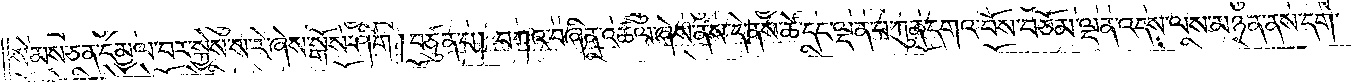སེམས་ཅན་དམྱལ་བར་སྐྱེས་ས་རེ་ཞེས་སྒོས་ཤིག །བཙུན་པ། བཀའ་བཞིན་འཚལ་ཞེས་ནས་དེ་ནས་ཚེ་དང་ལྡན་པ་ཀུན་དགའ་བོས་བཅོམ་ལྡན་འདས་ལས་མཉན་ནས་དགེ་
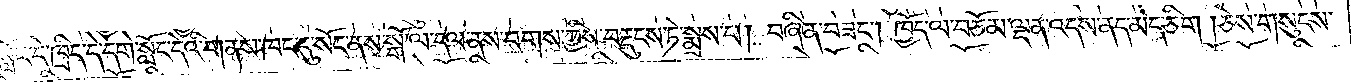སློང་དེ་ཁྲིད་དེ་དགེ་སློང་དེའི་གནས་ཁང་དུ་སོང་ནས་སྒོ་ལ་དལ་ནས་བགས་ཀྱིས་བརྡུངས་ཏེ་སྨྲས་པ། བཞིན་བཟང༌། ཁྱོད་ལ་བཅོམ་ལྡན་འདས་ནད་མེད་ཅིག །ཅེས་གསུངས་
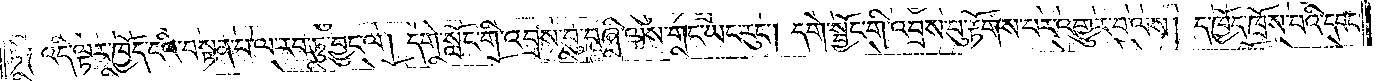ཏེ༑ འདི་ལྟར་ཁྱོད་ངའི་བསྟན་པ་ལ་རབ་ཏུ་བྱུང་ལ། དགེ་སློང་གི་འབྲས་བུ་བཞི་ལས་གང་ཡང་རུང༌། དགེ་སྦྱོང་གི་འབྲས་བུ་རྟོགས་པར་འགྱུར་བ་ལས། ད་ཁྱོད་ཁྲོས་བའི་དབང་
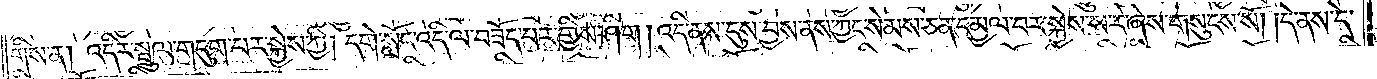གིས་ན། འདིར་སྦྲུལ་གདུག་པར་སྐྱེས་ཀྱི། དགེ་སློང་འདི་ལ་བཟོད་པར་གྱིས་ཤིག །འདི་ནས་དུས་བྱས་ནས་ཀྱང་སེམས་ཅན་དམྱལ་བར་སྐྱེས་ས་རེ་ཞེས་གསུངས་སོ། །དེ་ནས་དེ་
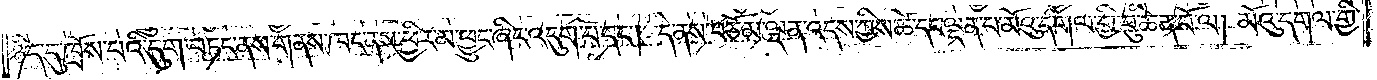ཉིད་དུ་ཁྲོས་པའི་དུག་བཏང་ནས་གནས་ཁང་ནས་ཕྱིར་མ་ཕྱུང་ཞིང་འདུག་པ་དང༌། དེ་ནས་བཅོམ་ལྡན་འདས་ཀྱིས་ཚེ་དང་ལྡན་པ་མོའུ་དགལ་གྱི་བུ་ཆེན་པོ་ལ། མོའུ་དགལ་གྱི་
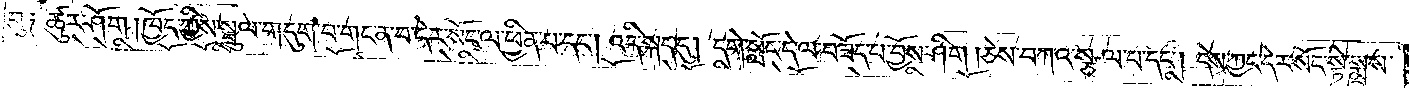བུ༑ ཚུར་ཤོག །ཁྱོད་ཀྱིས་སྦྲུལ་གདུག་པ་གང་ན་བ་དེར་སོང་ལ་ཕྱིན་པ་དང༌། འདི་སྐད་དུ། དགེ་སློང་དེ་ལ་བཟོད་པ་བྱོས་ཤིག །ཅེས་བཀའ་སྩལ་པ་དང༌། དེས་ཀྱང་དེར་སོང་སྟེ་སྨྲས་
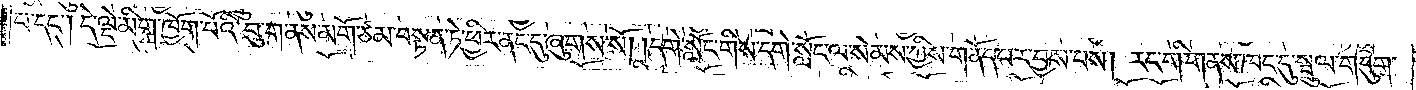པ་དང༌། དེ་ལྡེ་མིག་ཁྱོག་པོའི་བུ་ག་ནས་མགོ་ཙམ་བསྟན་ཏེ་ཕྱིར་ནང་དུ་ཞུགས་སོ། །དགེ་སློང་གིས་དགེ་སློང་ལ་སེམས་ཀྱིས་གནོད་པར་བྱས་པས། རང་གི་གནས་ཁང་དུ་སྦྲུལ་གདུག་
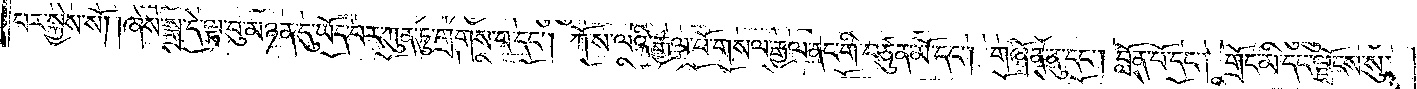པར་སྐྱེས་སོ། །ཞེས་སྒྲ་དེ་ལྟ་བུ་མཉན་དུ་ཡོད་པར་ཀུན་ཏུ་གྲགས་པ་དང༌། ཀོ་ས་ལའི་རྒྱལ་པོ་གསལ་རྒྱལ་ནང་གི་བཙུན་མོ་དང༌། གཞོན་ནུ་དང༌། བློན་པོ་དང༌། གྲོང་མི་དང་ལྗོངས་སུ་
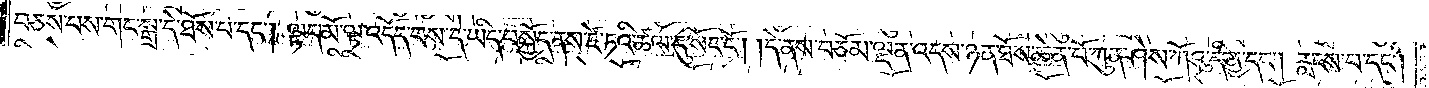བཅས་པས་གང་སྒྲ་དེ་ཐོས་པ་དང༌། ལྟད་མོ་ལྟ་འདོད་པས་དེ་ཡིད་བསྐྱེད་ནས་ཛེ་ཏའི་ཚལ་དུ་སོང་ངོ༌། །དེ་ནས་བཅོམ་ལྡན་འདས་ཉན་ཐོས་ཆེན་པོ་ཀུན་ཤེས་ཀོའུ་དི་ནྱ་དང༌། རླངས་པ་དང༌།
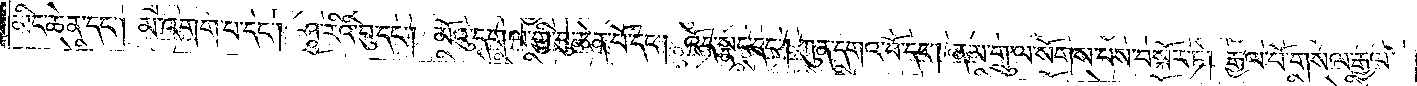མིང་ཆེན་དང༌། མ་འགག་པ་དང༌། ཤཱ་རིའི་བུ་དང༌། མོའུ་དགལ་གྱི་བུ་ཆེན་པོ་དང༌། འོད་སྣང་དང༌། ཀུན་དགའ་བོ་དང༌། ནམ་གྲུ་ལ་སོགས་པས་བསྐོར་ཏེ། རྒྱལ་པོ་གསལ་རྒྱལ་
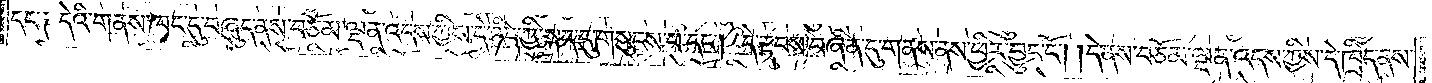དང་༑ དེའི་གནས་ཁང་དུ་བཞུད་ནས་བཅོམ་ལྡན་འདས་ཀྱིས་དེ་ཉིད་ཀྱི་སྐད་དུ་གསུངས་པ་དང༌། དེ་རྟབས་བཞིན་དུ་གནས་ནས་ཕྱིར་བྱུང་ངོ༌། །དེ་ནས་བཅོམ་ལྡན་འདས་ཀྱིས་དེ་ཁྲིད་ནས་
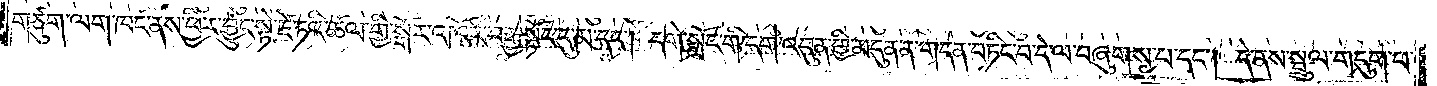གཙུག་ལག་ཁང་ནས་ཕྱིར་བྱུང་སྟེ་ཛེ་ཏའི་ཚལ་གྱི་སྒོར་འཁོར་བརྒྱ་སྟོང་དུ་མ་དང༌། དགེ་སློང་གི་དགེ་འདུན་གྱི་མདུན་ན་གདན་བཏིང་བ་དེ་ལ་བཞུགས་པ་དང༌། དེ་ནས་སྦྲུལ་གདུག་པ་
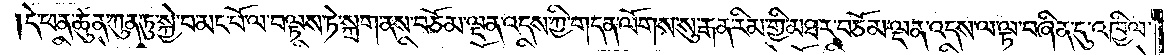དེ་ཕན་ཚུན་ཀུན་ཏུ་སྐྱེ་བ་མང་པོ་ལ་བལྟས་ཏེ་སྐྲག་ནས་བཅོམ་ལྡན་འདས་ཀྱི་གདན་ལོགས་སུ་རྒན་རིམ་གྱི་མཐར་བཅོམ་ལྡན་འདས་ལ་ལྟ་བཞིན་དུ་འཁྱིལ་
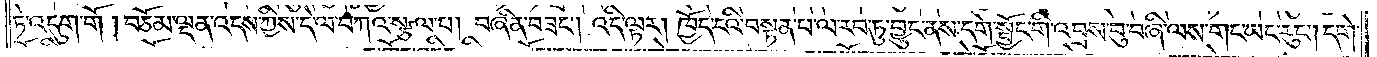ཏེ་འདུག་གོ །བཅོམ་ལྡན་འདས་ཀྱིས་དེ་ལ་བཀའ་སྩལ་པ། བཞིན་བཟང༌། འདི་ལྟར། ཁྱོད་ངའི་བསྟན་པ་ལ་རབ་ཏུ་བྱུང་ནས་དགེ་སྦྱོང་གི་འབྲས་བུ་བཞི་ལས་གང་ཡང་རུང༌། དགེ་
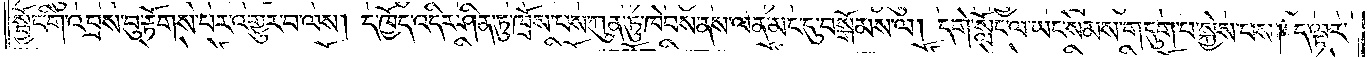སྦྱོང་གི་འབྲས་བུ་རྟོགས་པར་འགྱུར་བ་ལས། ད་ཁྱོད་འདིར་ཤིན་ཏུ་ཁྲོས་པས་ཀུན་ཏུ་ཁེབས་ནས་ལན་མང་དུ་བསྒོམས་ལ། དགེ་སློང་ལ་ཡང་སེམས་གདུག་པ་སྐྱེས་པས། ད་ལྟར་
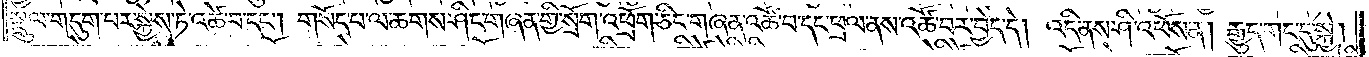སྦྲུལ་གདུག་པར་སྐྱེས་ཏེ་འཚེ་བ་དང༌། གསོད་པ་ལ་ཆགས་ཤིང་གཞན་གྱི་སྲོག་འཕྲོག་ཅིང་གཞན་འཚོ་བ་དང་ཕྲལ་ནས་འཚོ་བར་བྱེད་དེ། འདི་ནས་ཤི་འཕོས་ན། རྒྱུད་གང་དུ་སྐྱེ།
